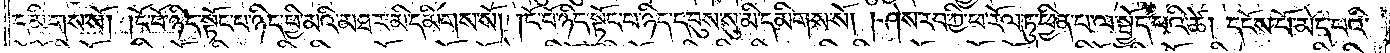དམིགས་སོ། །ངོ་བོ་ཉིད་སྟོང་པ་ཉིད་ཕྱི་མའི་མཐར་མི་དམིགས་སོ། །ངོ་བོ་ཉིད་སྟོང་པ་ཉིད་དབུས་སུ་མི་དམིགས་སོ། །ཤེས་རབ་ཀྱི་ཕ་རོལ་ཏུ་ཕྱིན་པ་ལ་སྤྱོད་པའི་ཚེ། དངོས་པོ་མེད་པའི་
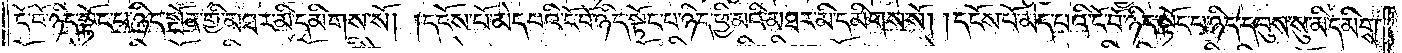ངོ་བོ་ཉིད་སྟོང་པ་ཉིད་སྔོན་གྱི་མཐར་མི་དམིགས་སོ། །དངོས་པོ་མེད་པའི་ངོ་བོ་ཉིད་སྟོང་པ་ཉིད་ཕྱི་མའི་མཐར་མི་དམིགས་སོ། །དངོས་པོ་མེད་པའི་ངོ་བོ་ཉིད་སྟོང་པ་ཉིད་དབུས་སུ་མི་དམིགས་
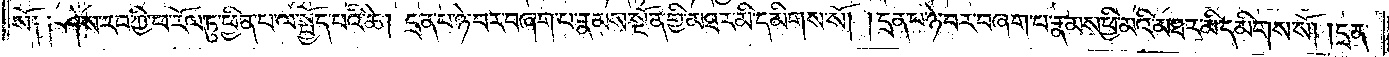སོ༑ ༑ཤེས་རབ་ཀྱི་ཕ་རོལ་ཏུ་ཕྱིན་པ་ལ་སྤྱོད་པའི་ཚེ། དྲན་པ་ཉེ་བར་བཞག་པ་རྣམས་སྔོན་གྱི་མཐར་མི་དམིགས་སོ། །དྲན་པ་ཉེ་བར་བཞག་པ་རྣམས་ཕྱི་མའི་མཐར་མི་དམིགས་སོ། །དྲན་
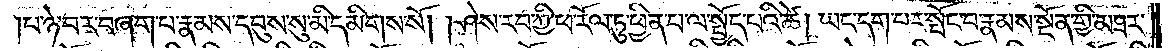པ་ཉེ་བར་བཞག་པ་རྣམས་དབུས་སུ་མི་དམིགས་སོ། །ཤེས་རབ་ཀྱི་ཕ་རོལ་ཏུ་ཕྱིན་པ་ལ་སྤྱོད་པའི་ཚེ། ཡང་དག་པར་སྤོང་བ་རྣམས་སྔོན་གྱི་མཐར་
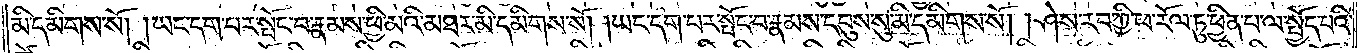མི་དམིགས་སོ། །ཡང་དག་པར་སྤོང་བ་རྣམས་ཕྱི་མའི་མཐར་མི་དམིགས་སོ། །ཡང་དག་པར་སྤོང་བ་རྣམས་དབུས་སུ་མི་དམིགས་སོ། །ཤེས་རབ་ཀྱི་ཕ་རོལ་ཏུ་ཕྱིན་པ་ལ་སྤྱོད་པའི་
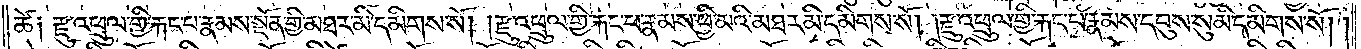ཚེ༑ རྫུ་འཕྲུལ་གྱི་རྐང་པ་རྣམས་སྔོན་གྱི་མཐར་མི་དམིགས་སོ། །རྫུ་འཕྲུལ་གྱི་རྐང་པ་རྣམས་ཕྱི་མའི་མཐར་མི་དམིགས་སོ། །རྫུ་འཕྲུལ་གྱི་རྐང་པ་རྣམས་དབུས་སུ་མི་དམིགས་སོ། །
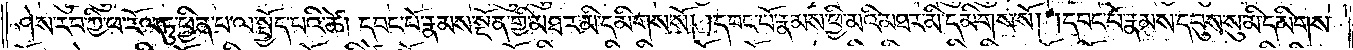ཤེས་རབ་ཀྱི་ཕ་རོལ་ཏུ་ཕྱིན་པ་ལ་སྤྱོད་པའི་ཚེ། དབང་པོ་རྣམས་སྔོན་གྱི་མཐར་མི་དམིགས་སོ། །དབང་པོ་རྣམས་ཕྱི་མའི་མཐར་མི་དམིགས་སོ། །དབང་པོ་རྣམས་དབུས་སུ་མི་དམིགས་
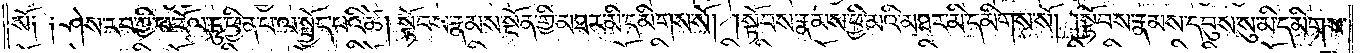སོ༑ ༑ཤེས་རབ་ཀྱི་ཕ་རོལ་ཏུ་ཕྱིན་པ་ལ་སྤྱོད་པའི་ཚེ། སྟོབས་རྣམས་སྔོན་གྱི་མཐར་མི་དམིགས་སོ། །སྟོབས་རྣམས་ཕྱི་མའི་མཐར་མི་དམིགས་སོ། །སྟོབས་རྣམས་དབུས་སུ་མི་དམིགས་
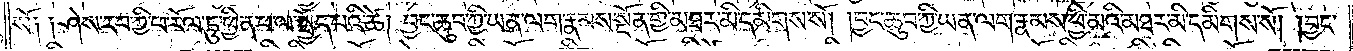སོ༑ ༑ཤེས་རབ་ཀྱི་ཕ་རོལ་ཏུ་ཕྱིན་པ་ལ་སྤྱོད་པའི་ཚེ། བྱང་ཆུབ་ཀྱི་ཡན་ལག་རྣམས་སྔོན་གྱི་མཐར་མི་དམིགས་སོ། །བྱང་ཆུབ་ཀྱི་ཡན་ལག་རྣམས་ཕྱི་མའི་མཐར་མི་དམིགས་སོ། །བྱང་
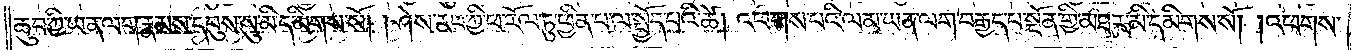ཆུབ་ཀྱི་ཡན་ལག་རྣམས་དབུས་སུ་མི་དམིགས་སོ། །ཤེས་རབ་ཀྱི་ཕ་རོལ་ཏུ་ཕྱིན་པ་ལ་སྤྱོད་པའི་ཚེ། འཕགས་པའི་ལམ་ཡན་ལག་བརྒྱད་པ་སྔོན་གྱི་མཐར་མི་དམིགས་སོ། །འཕགས་
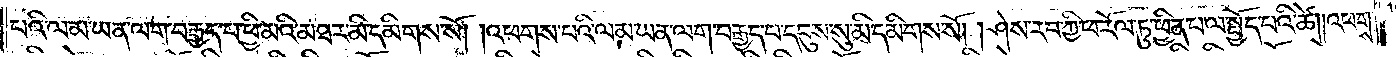པའི་ལམ་ཡན་ལག་བརྒྱད་པ་ཕྱི་མའི་མཐར་མི་དམིགས་སོ། །འཕགས་པའི་ལམ་ཡན་ལག་བརྒྱད་པ་དབུས་སུ་མི་དམིགས་སོ། །ཤེས་རབ་ཀྱི་ཕ་རོལ་ཏུ་ཕྱིན་པ་ལ་སྤྱོད་པའི་ཚེ། །འཕགས་
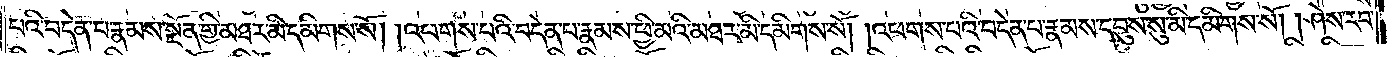པའི་བདེན་པ་རྣམས་སྔོན་གྱི་མཐར་མི་དམིགས་སོ། །འཕགས་པའི་བདེན་པ་རྣམས་ཕྱི་མའི་མཐར་མི་དམིགས་སོ། །འཕགས་པའི་བདེན་པ་རྣམས་དབུས་སུ་མི་དམིགས་སོ། །ཤེས་རབ་
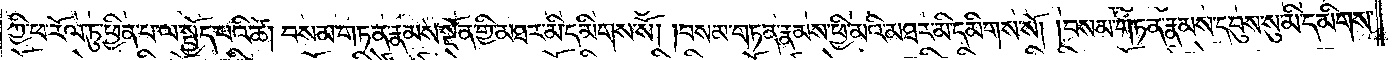ཀྱི་ཕ་རོལ་ཏུ་ཕྱིན་པ་ལ་སྤྱོད་པའི་ཚེ། བསམ་གཏན་རྣམས་སྔོན་གྱི་མཐར་མི་དམིགས་སོ། །བསམ་གཏན་རྣམས་ཕྱི་མའི་མཐར་མི་དམིགས་སོ། །བསམ་གཏན་རྣམས་དབུས་སུ་མི་དམིགས་
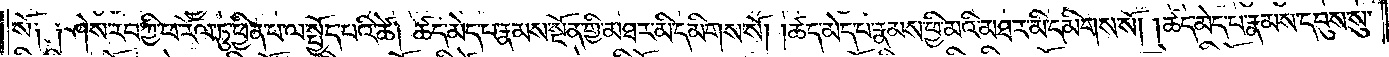སོ༑ ༑ཤེས་རབ་ཀྱི་ཕ་རོལ་ཏུ་ཕྱིན་པ་ལ་སྤྱོད་པའི་ཚེ། ཚད་མེད་པ་རྣམས་སྔོན་གྱི་མཐར་མི་དམིགས་སོ། །ཚད་མེད་པ་རྣམས་ཕྱི་མའི་མཐར་མི་དམིགས་སོ། །ཚད་མེད་པ་རྣམས་དབུས་སུ་
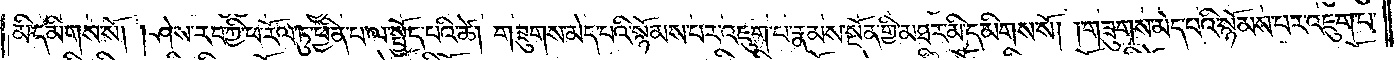མི་དམིགས་སོ། །ཤེས་རབ་ཀྱི་ཕ་རོལ་ཏུ་ཕྱིན་པ་ལ་སྤྱོད་པའི་ཚེ། གཟུགས་མེད་པའི་སྙོམས་པར་འཇུག་པ་རྣམས་སྔོན་གྱི་མཐར་མི་དམིགས་སོ། །གཟུགས་མེད་པའི་སྙོམས་པར་འཇུག་པ་
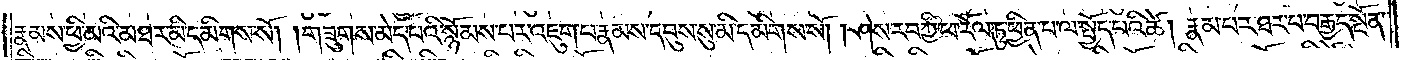རྣམས་ཕྱི་མའི་མཐར་མི་དམིགས་སོ། །གཟུགས་མེད་པའི་སྙོམས་པར་འཇུག་པ་རྣམས་དབུས་སུ་མི་དམིགས་སོ། །ཤེས་རབ་ཀྱི་ཕ་རོལ་ཏུ་ཕྱིན་པ་ལ་སྤྱོད་པའི་ཚེ། རྣམ་པར་ཐར་པ་བརྒྱད་སྔོན་
